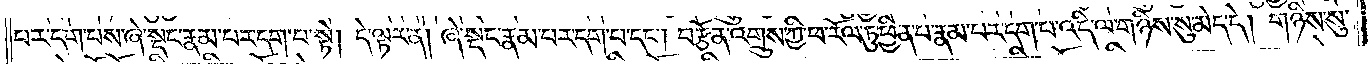པར་དག་པས་ཞེ་སྡང་རྣམ་པར་དག་པ་སྟེ། དེ་ལྟར་ན། ཞེ་སྡང་རྣམ་པར་དག་པ་དང༌། བརྩོན་འགྲུས་ཀྱི་ཕ་རོལ་ཏུ་ཕྱིན་པ་རྣམ་པར་དག་པ་འདི་ལ་གཉིས་སུ་མེད་དེ། གཉིས་སུ་
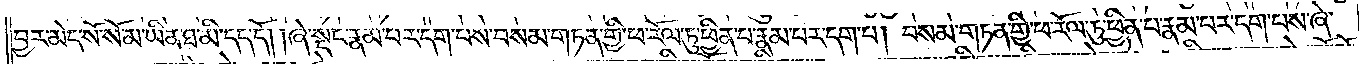བྱར་མེད་སོ་སོ་མ་ཡིན་ཐ་མི་དད་དོ། །ཞེ་སྡང་རྣམ་པར་དག་པས་བསམ་གཏན་གྱི་ཕ་རོལ་ཏུ་ཕྱིན་པ་རྣམ་པར་དག་པ། བསམ་གཏན་གྱི་ཕ་རོལ་ཏུ་ཕྱིན་པ་རྣམ་པར་དག་པས་ཞེ་
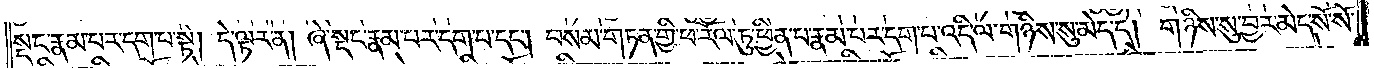སྡང་རྣམ་པར་དག་པ་སྟེ། དེ་ལྟར་ན། ཞེ་སྡང་རྣམ་པར་དག་པ་དང༌། བསམ་གཏན་གྱི་ཕ་རོལ་ཏུ་ཕྱིན་པ་རྣམ་པར་དག་པ་འདི་ལ་གཉིས་སུ་མེད་དེ། གཉིས་སུ་བྱར་མེད་སོ་སོ་
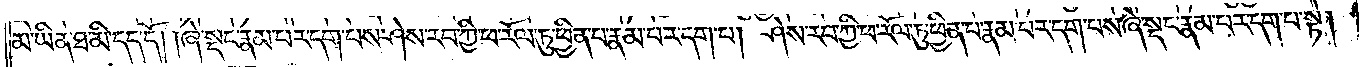མ་ཡིན་ཐ་མི་དད་དོ། །ཞེ་སྡང་རྣམ་པར་དག་པས་ཤེས་རབ་ཀྱི་ཕ་རོལ་ཏུ་ཕྱིན་པ་རྣམ་པར་དག་པ། ཤེས་རབ་ཀྱི་ཕ་རོལ་ཏུ་ཕྱིན་པ་རྣམ་པར་དག་པས་ཞེ་སྡང་རྣམ་པར་དག་པ་སྟེ།
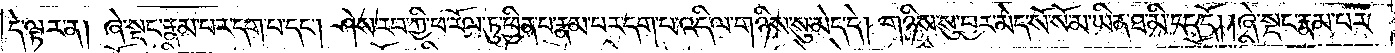དེ་ལྟར་ན། ཞེ་སྡང་རྣམ་པར་དག་པ་དང༌། ཤེས་རབ་ཀྱི་ཕ་རོལ་ཏུ་ཕྱིན་པ་རྣམ་པར་དག་པ་འདི་ལ་གཉིས་སུ་མེད་དེ། གཉིས་སུ་བྱར་མེད་སོ་སོ་མ་ཡིན་ཐ་མི་དད་དོ། །ཞེ་སྡང་རྣམ་པར་
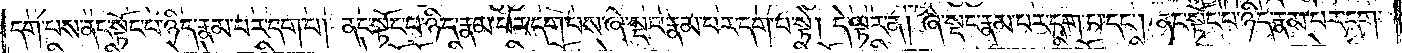དག་པས་ནང་སྟོང་པ་ཉིད་རྣམ་པར་དག་པ། ནང་སྟོང་པ་ཉིད་རྣམ་པར་དག་པས་ཞེ་སྡང་རྣམ་པར་དག་པ་སྟེ། དེ་ལྟར་ན། ཞེ་སྡང་རྣམ་པར་དག་པ་དང༌། ནང་སྟོང་པ་ཉིད་རྣམ་པར་དག་
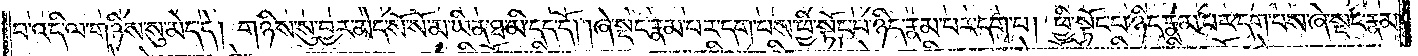པ་འདི་ལ་གཉིས་སུ་མེད་དེ། གཉིས་སུ་བྱར་མེད་སོ་སོ་མ་ཡིན་ཐ་མི་དད་དོ། །ཞེ་སྡང་རྣམ་པར་དག་པས་ཕྱི་སྟོང་པ་ཉིད་རྣམ་པར་དག་པ། ཕྱི་སྟོང་པ་ཉིད་རྣམ་པར་དག་པས་ཞེ་སྡང་རྣམ་
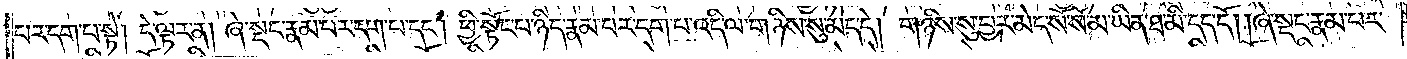པར་དག་པ་སྟེ། དེ་ལྟར་ན། ཞེ་སྡང་རྣམ་པར་དག་པ་དང༌། ཕྱི་སྟོང་པ་ཉིད་རྣམ་པར་དག་པ་འདི་ལ་གཉིས་སུ་མེད་དེ། གཉིས་སུ་བྱར་མེད་སོ་སོ་མ་ཡིན་ཐ་མི་དད་དོ། །ཞེ་སྡང་རྣམ་པར་
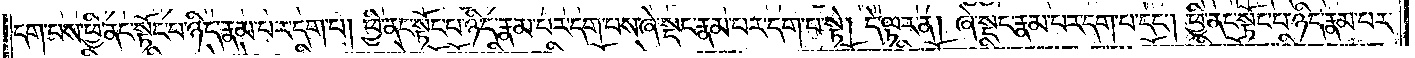དག་པས་ཕྱི་ནང་སྟོང་པ་ཉིད་རྣམ་པར་དག་པ། ཕྱི་ནང་སྟོང་པ་ཉིད་རྣམ་པར་དག་པས་ཞེ་སྡང་རྣམ་པར་དག་པ་སྟེ། དེ་ལྟར་ན། ཞེ་སྡང་རྣམ་པར་དག་པ་དང༌། ཕྱི་ནང་སྟོང་པ་ཉིད་རྣམ་པར་
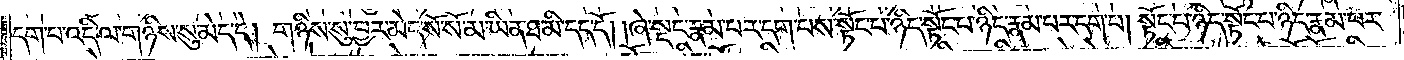དག་པ་འདི་ལ་གཉིས་སུ་མེད་དེ། གཉིས་སུ་བྱར་མེད་སོ་སོ་མ་ཡིན་ཐ་མི་དད་དོ། །ཞེ་སྡང་རྣམ་པར་དག་པས་སྟོང་པ་ཉིད་སྟོང་པ་ཉིད་རྣམ་པར་དག་པ། སྟོང་པ་ཉིད་སྟོང་པ་ཉིད་རྣམ་པར་
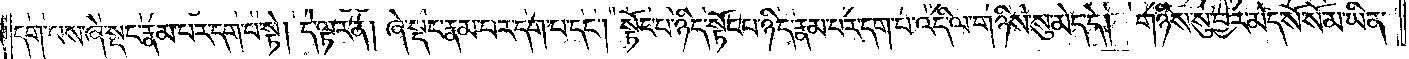དག་པས་ཞེ་སྡང་རྣམ་པར་དག་པ་སྟེ། དེ་ལྟར་ན། ཞེ་སྡང་རྣམ་པར་དག་པ་དང༌། སྟོང་པ་ཉིད་སྟོང་པ་ཉིད་རྣམ་པར་དག་པ་འདི་ལ་གཉིས་སུ་མེད་དེ། གཉིས་སུ་བྱར་མེད་སོ་སོ་མ་ཡིན་
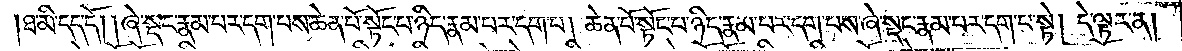ཐ་མི་དད་དོ། །ཞེ་སྡང་རྣམ་པར་དག་པས་ཆེན་པོ་སྟོང་པ་ཉིད་རྣམ་པར་དག་པ། ཆེན་པོ་སྟོང་པ་ཉིད་རྣམ་པར་དག་པས་ཞེ་སྡང་རྣམ་པར་དག་པ་སྟེ། དེ་ལྟར་ན།
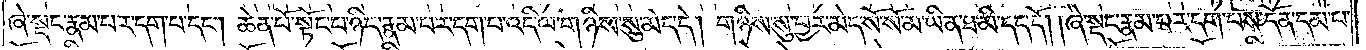ཞེ་སྡང་རྣམ་པར་དག་པ་དང༌། ཆེན་པོ་སྟོང་པ་ཉིད་རྣམ་པར་དག་པ་འདི་ལ་གཉིས་སུ་མེད་དེ། གཉིས་སུ་བྱར་མེད་སོ་སོ་མ་ཡིན་ཐ་མི་དད་དོ། །ཞེ་སྡང་རྣམ་པར་དག་པས་དོན་དམ་པ་
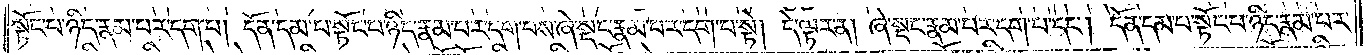སྟོང་པ་ཉིད་རྣམ་པར་དག་པ། དོན་དམ་པ་སྟོང་པ་ཉིད་རྣམ་པར་དག་པས་ཞེ་སྡང་རྣམ་པར་དག་པ་སྟེ། དེ་ལྟར་ན། ཞེ་སྡང་རྣམ་པར་དག་པ་དང༌། དོན་དམ་པ་སྟོང་པ་ཉིད་རྣམ་པར་
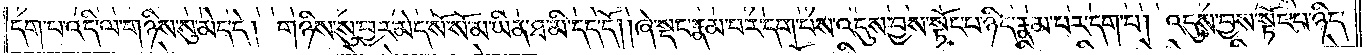དག་པ་འདི་ལ་གཉིས་སུ་མེད་དེ། གཉིས་སུ་བྱར་མེད་སོ་སོ་མ་ཡིན་ཐ་མི་དད་དོ། །ཞེ་སྡང་རྣམ་པར་དག་པས་འདུས་བྱས་སྟོང་པ་ཉིད་རྣམ་པར་དག་པ། འདུས་བྱས་སྟོང་པ་ཉིད་
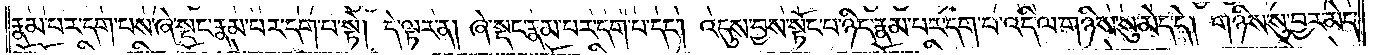རྣམ་པར་དག་པས་ཞེ་སྡང་རྣམ་པར་དག་པ་སྟེ། དེ་ལྟར་ན། ཞེ་སྡང་རྣམ་པར་དག་པ་དང༌། འདུས་བྱས་སྟོང་པ་ཉིད་རྣམ་པར་དག་པ་འདི་ལ་གཉིས་སུ་མེད་དེ། གཉིས་སུ་བྱར་མེད་
